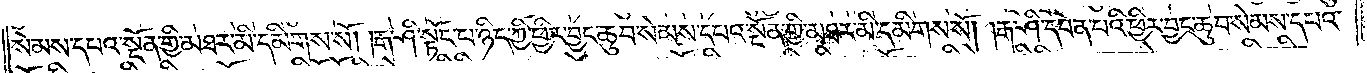སེམས་དཔའ་སྔོན་གྱི་མཐར་མི་དམིགས་སོ། །རྒ་ཤི་སྟོང་པ་ཉིད་ཀྱི་ཕྱིར་བྱང་ཆུབ་སེམས་དཔའ་སྔོན་གྱི་མཐར་མི་དམིགས་སོ། །རྒ་ཤི་དབེན་པའི་ཕྱིར་བྱང་ཆུབ་སེམས་དཔའ་
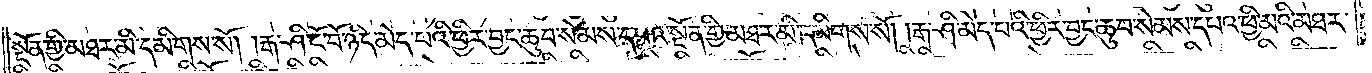སྔོན་གྱི་མཐར་མི་དམིགས་སོ། །རྒ་ཤི་ངོ་བོ་ཉིད་མེད་པའི་ཕྱིར་བྱང་ཆུབ་སེམས་དཔའ་སྔོན་གྱི་མཐར་མི་དམིགས་སོ། །རྒ་ཤི་མེད་པའི་ཕྱིར་བྱང་ཆུབ་སེམས་དཔའ་ཕྱི་མའི་མཐར་
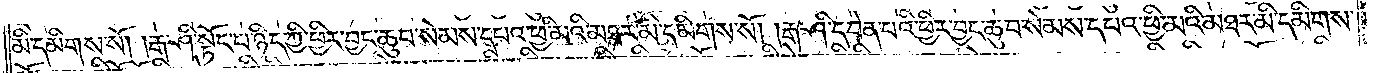མི་དམིགས་སོ། །རྒ་ཤི་སྟོང་པ་ཉིད་ཀྱི་ཕྱིར་བྱང་ཆུབ་སེམས་དཔའ་ཕྱི་མའི་མཐར་མི་དམིགས་སོ། །རྒ་ཤི་དབེན་པའི་ཕྱིར་བྱང་ཆུབ་སེམས་དཔའ་ཕྱི་མའི་མཐར་མི་དམིགས་
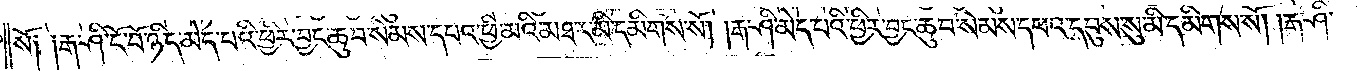སོ། །རྒ་ཤི་ངོ་བོ་ཉིད་མེད་པའི་ཕྱིར་བྱང་ཆུབ་སེམས་དཔའ་ཕྱི་མའི་མཐར་མི་དམིགས་སོ། །རྒ་ཤི་མེད་པའི་ཕྱིར་བྱང་ཆུབ་སེམས་དཔའ་དབུས་སུ་མི་དམིགས་སོ། །རྒ་ཤི་
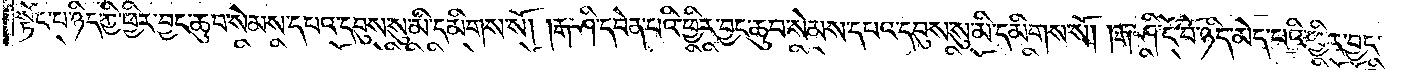སྟོང་པ་ཉིད་ཀྱི་ཕྱིར་བྱང་ཆུབ་སེམས་དཔའ་དབུས་སུ་མི་དམིགས་སོ། །རྒ་ཤི་དབེན་པའི་ཕྱིར་བྱང་ཆུབ་སེམས་དཔའ་དབུས་སུ་མི་དམིགས་སོ། །རྒ་ཤི་ངོ་བོ་ཉིད་མེད་པའི་ཕྱིར་བྱང་
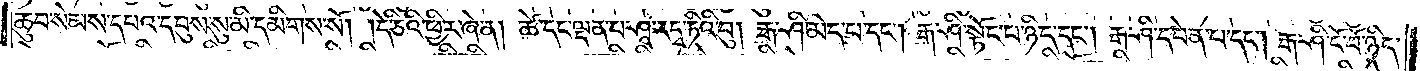ཆུབ་སེམས་དཔའ་དབུས་སུ་མི་དམིགས་སོ། །དེ་ཅིའི་ཕྱིར་ཞེ་ན། ཚེ་དང་ལྡན་པ་ཤཱ་རདྭ་ཏིའི་བུ། རྒ་ཤི་མེད་པ་དང༌། རྒ་ཤི་སྟོང་པ་ཉིད་དང༌། རྒ་ཤི་དབེན་པ་དང༌། རྒ་ཤི་ངོ་བོ་ཉིད་
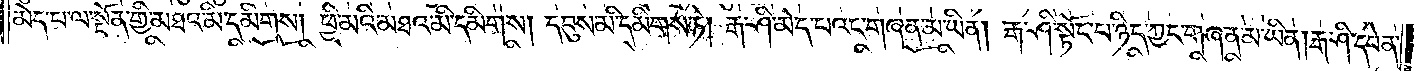མེད་པ་ལ་སྔོན་གྱི་མཐའ་མི་དམིགས། ཕྱི་མའི་མཐའ་མི་དམིགས། དབུས་མི་དམིགས་ཏེ། རྒ་ཤི་མེད་པའང་གཞན་མ་ཡིན། རྒ་ཤི་སྟོང་པ་ཉིད་ཀྱང་གཞན་མ་ཡིན། རྒ་ཤི་དབེན་
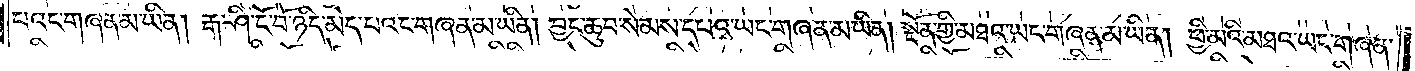པའང་གཞན་མ་ཡིན། རྒ་ཤི་ངོ་བོ་ཉིད་མེད་པའང་གཞན་མ་ཡིན། བྱང་ཆུབ་སེམས་དཔའ་ཡང་གཞན་མ་ཡིན། སྔོན་གྱི་མཐའ་ཡང་གཞན་མ་ཡིན། ཕྱི་མའི་མཐའ་ཡང་གཞན་
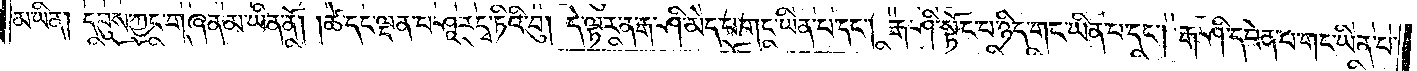མ་ཡིན། དབུས་ཀྱང་གཞན་མ་ཡིན་ནོ། །ཚེ་དང་ལྡན་པ་ཤཱ་རདྭ་ཏིའི་བུ། དེ་ལྟར་ན་རྒ་ཤི་མེད་པ་གང་ཡིན་པ་དང༌། རྒ་ཤི་སྟོང་པ་ཉིད་གང་ཡིན་པ་དང༌། རྒ་ཤི་དབེན་པ་གང་ཡིན་པ་
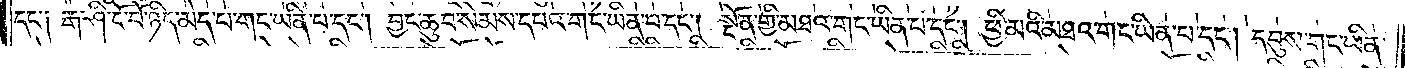དང་༑ རྒ་ཤི་ངོ་བོ་ཉིད་མེད་པ་གང་ཡིན་པ་དང༌། བྱང་ཆུབ་སེམས་དཔའ་གང་ཡིན་པ་དང༌། སྔོན་གྱི་མཐའ་གང་ཡིན་པ་དང༌། ཕྱི་མའི་མཐའ་གང་ཡིན་པ་དང༌། དབུས་གང་ཡིན་
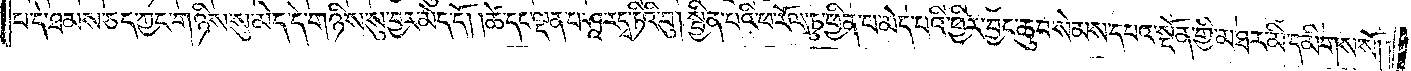པ་དེ་ཐམས་ཅད་ཀྱང་གཉིས་སུ་མེད་དེ་གཉིས་སུ་བྱར་མེད་དོ། །ཚེ་དང་ལྡན་པ་ཤཱ་རདྭ་ཏིའི་བུ། སྦྱིན་པའི་ཕ་རོལ་ཏུ་ཕྱིན་པ་མེད་པའི་ཕྱིར་བྱང་ཆུབ་སེམས་དཔའ་སྔོན་གྱི་མཐར་མི་དམིགས་སོ། །
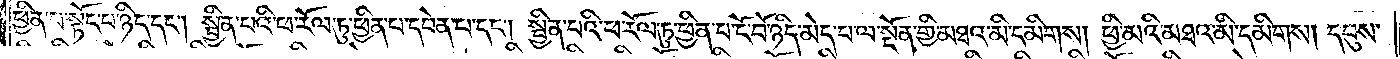ཕྱིན་པ་སྟོང་པ་ཉིད་དང༌། སྦྱིན་པའི་ཕ་རོལ་ཏུ་ཕྱིན་པ་དབེན་པ་དང༌། སྦྱིན་པའི་ཕ་རོལ་ཏུ་ཕྱིན་པ་ངོ་བོ་ཉིད་མེད་པ་ལ་སྔོན་གྱི་མཐའ་མི་དམིགས། ཕྱི་མའི་མཐའ་མི་དམིགས། དབུས་
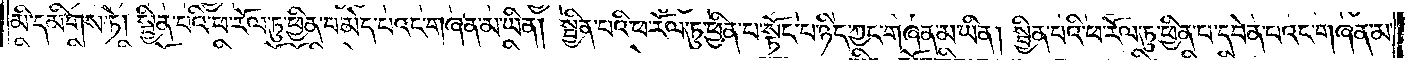མི་དམིགས་ཏེ། སྦྱིན་པའི་ཕ་རོལ་ཏུ་ཕྱིན་པ་མེད་པའང་གཞན་མ་ཡིན། སྦྱིན་པའི་ཕ་རོལ་ཏུ་ཕྱིན་པ་སྟོང་པ་ཉིད་ཀྱང་གཞན་མ་ཡིན། སྦྱིན་པའི་ཕ་རོལ་ཏུ་ཕྱིན་པ་དབེན་པའང་གཞན་མ་
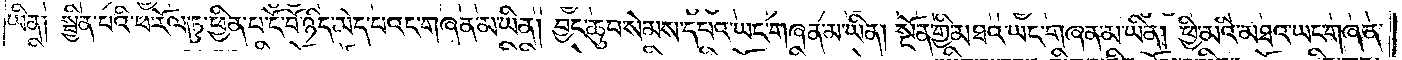ཡིན། སྦྱིན་པའི་ཕ་རོལ་ཏུ་ཕྱིན་པ་ངོ་བོ་ཉིད་མེད་པའང་གཞན་མ་ཡིན། བྱང་ཆུབ་སེམས་དཔའ་ཡང་གཞན་མ་ཡིན། སྔོན་གྱི་མཐའ་ཡང་གཞན་མ་ཡིན། ཕྱི་མའི་མཐའ་ཡང་གཞན་
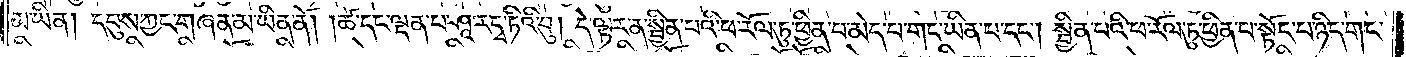མ་ཡིན། དབུས་ཀྱང་གཞན་མ་ཡིན་ནོ། །ཚེ་དང་ལྡན་པ་ཤཱ་རདྭ་ཏིའི་བུ། དེ་ལྟར་ན་སྦྱིན་པའི་ཕ་རོལ་ཏུ་ཕྱིན་པ་མེད་པ་གང་ཡིན་པ་དང༌། སྦྱིན་པའི་ཕ་རོལ་ཏུ་ཕྱིན་པ་སྟོང་པ་ཉིད་གང་
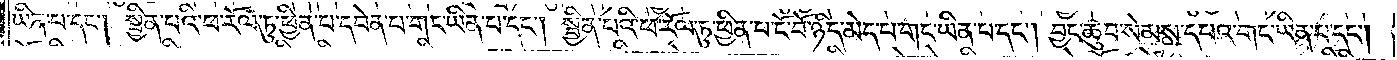ཡིན་པ་དང༌། སྦྱིན་པའི་ཕ་རོལ་ཏུ་ཕྱིན་པ་དབེན་པ་གང་ཡིན་པ་དང༌། སྦྱིན་པའི་ཕ་རོལ་ཏུ་ཕྱིན་པ་ངོ་བོ་ཉིད་མེད་པ་གང་ཡིན་པ་དང༌། བྱང་ཆུབ་སེམས་དཔའ་གང་ཡིན་པ་དང༌།
